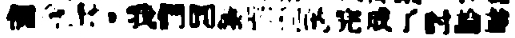個會上，我們圓滿順利的完成了討論並
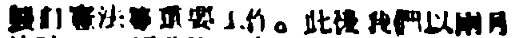制訂憲法等重要工作。此後我們以兩月
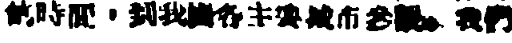的時間，到我國各主要城市參觀。我們
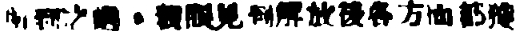所到之處，親眼見到解放後各方面都獲
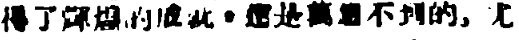得了輝煌的成就，這是萬想不到的。尤
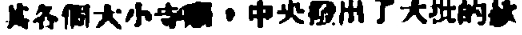其各個大小寺廟，中央發出了大批的款
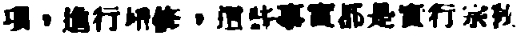項，進行培修，這些事實都是實行宗敎
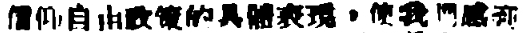信仰自由政策的具體表現，使我們感到
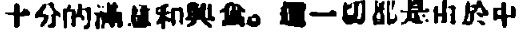十分的滿意和興奮。這一切都是由於中
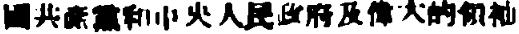國共產黨和中央人民政府及偉大的領袖
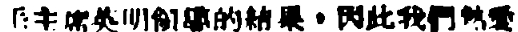毛主席英明領導的結果，因此我們熱愛
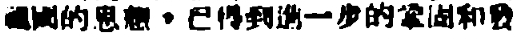祖國的思想，已得到進一步的鞏固和發
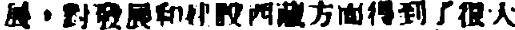展，對發展和建設西藏方面得到了很大
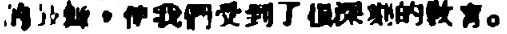的鼓舞，使我們受到了很深刻的敎育。
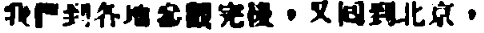我們到各地參觀完後，又囘到北京，
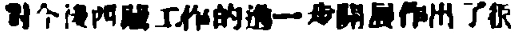對今後西藏工作的進一步開展作出了很
